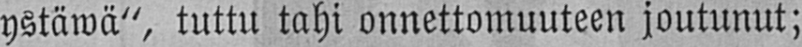ystäwä", tuttu tahi onnettomuuteen joutunut;
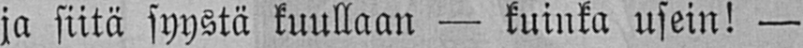ja siitä syystä kuullaan — kuinka usein! —
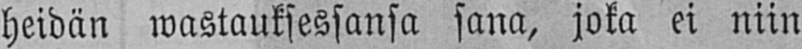heidän wastauksessansa sana, joka ei niin
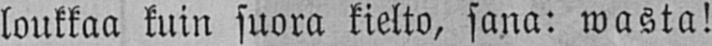loukkaa kuin suora kielto, sana: wasta!
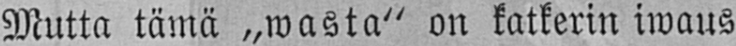Mutta tämä „wasta" on katkerin iwaus
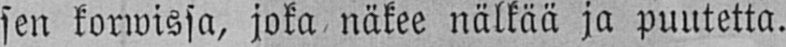sen korwissa, joka näkee nälkää ja puutetta.
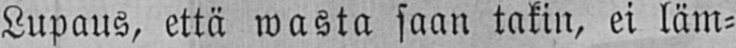Lupaus, että wasta saan takin, ei läm-
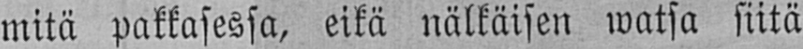mitä pakkasessa, eikä nälkäisen watsa siitä
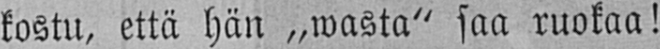kostu, että hän „wasta" saa ruokaa!
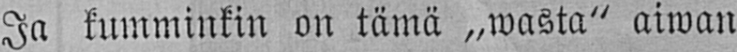Ja kumminkin on tämä „wasta" aiwan
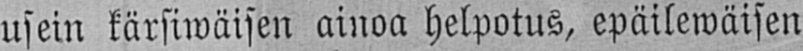usein kärsiwäisen ainoa helpotus, epäilewäisen
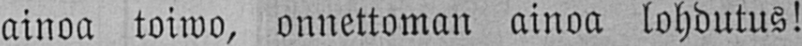ainoa toiwo, onnettoman ainoa lohdutus!
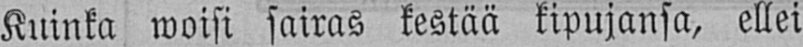Kuinka woisi sairas kestää kipujansa, ellei
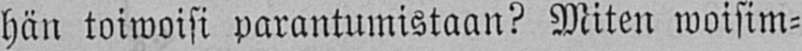hän toiwoisi parantumistaan? Miten woisim-
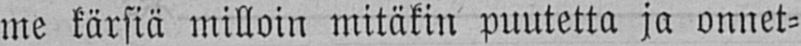me kärsiä milloin mitäkin puutetta ja onnet-
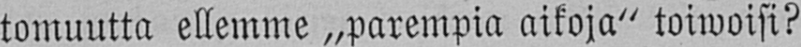tomuutta ellemme „parempia aikoja" toiwoisi?
